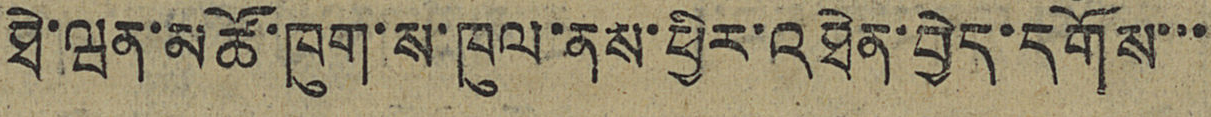ཐེ་ཝན་མཚོ་ཁུག་ས་ཁུལ་ནས་ཕྱིར་འཐེན་བྱེད་དགོས་་་
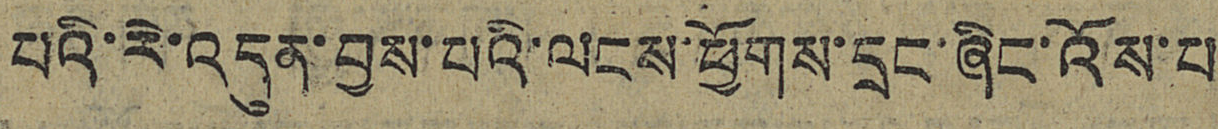པའི་རེ་འདུན་བྱས་པའི་ལངས་ཕྱོགས་དྲང་ཞིང་འོས་པ
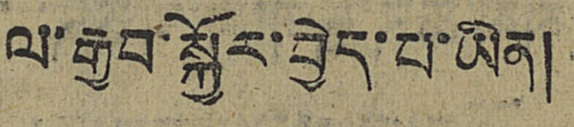ལ་རྒྱབ་སྐྱོར་བྱེད་པ་ཡིན།
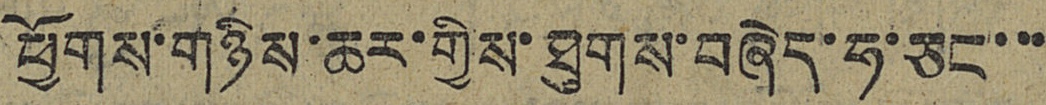ཕྱོགས་གཉིས་ཆར་གྱིས་ཐུགས་བཞེད་ཧ་ཅང་་་
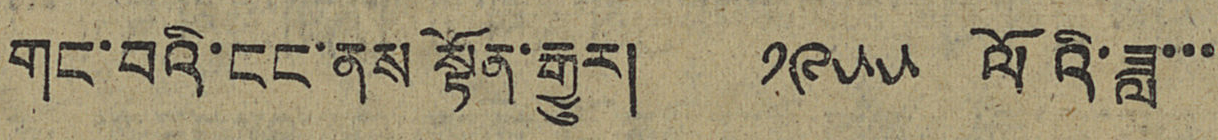གང་བའི་ངང་ནས སྟོན་རྒྱུར། ༡༩༥༥ ལོའི་ཟླ་་་
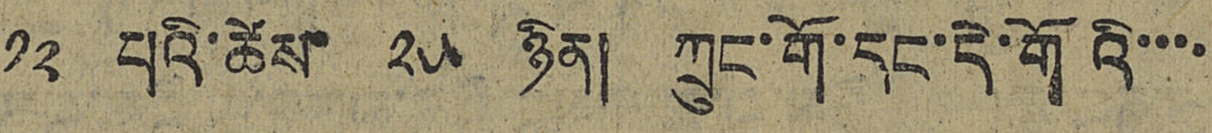༡༢ པའི་ཚེས་ ༢༥ ཉིན། ཀྲུང་གོ་དང་དེ་གོའི་་་་
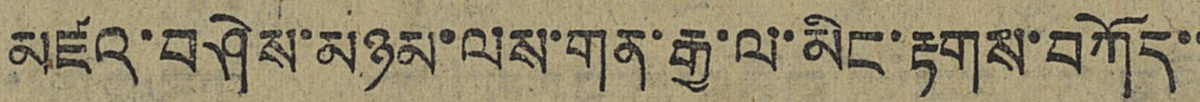མཛའ་བཤེས་མཉམ་ལས་གན་རྒྱ་ལ་མིང་རྟགས་བཀོད་་
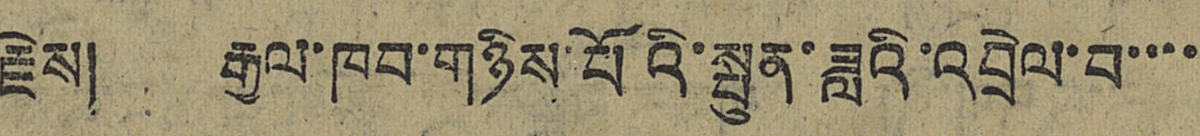རྗེས། རྒྱལ་ཁབ་གཉིས་པོའི་སྤུན་ཟླའི་འབྲེལ་བ་་་་
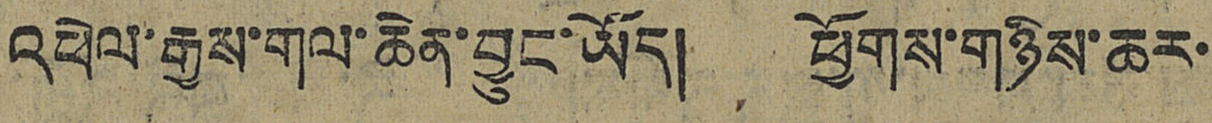འཕེལ་རྒྱས་གལ་ཆེན་བྱུང་ཡོད། ཕྱོགས་གཉིས་ཆར་
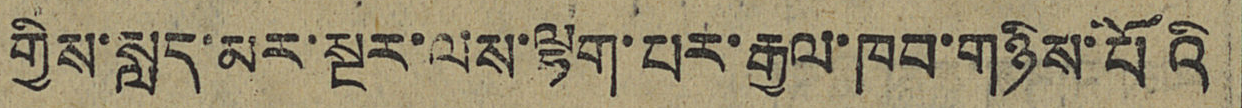གྱིས་སླད་མར་སྔར་ལས་ལྷག་པར་རྒྱལ་ཁབ་གཉིས་པོའི
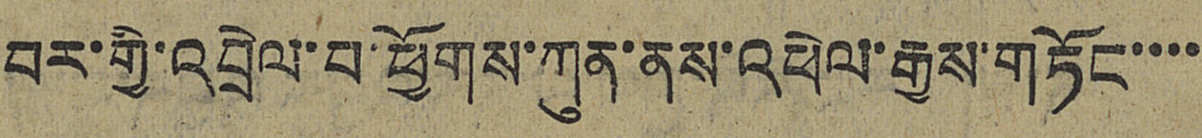བར་གྱི་འབྲེལ་བ་ཕྱོགས་ཀུན་ནས་འཕེལ་རྒྱས་གཏོང་་་་
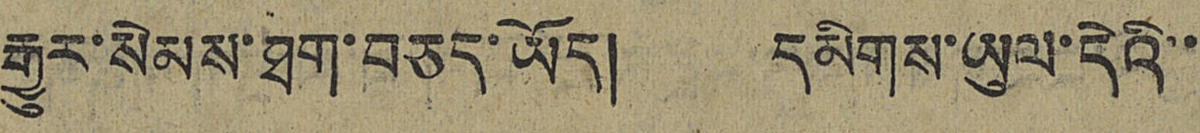རྒྱུར་སེམས་ཐག་བཅད་ཡོད། དམིགས་ཡུལ་དེའི་་
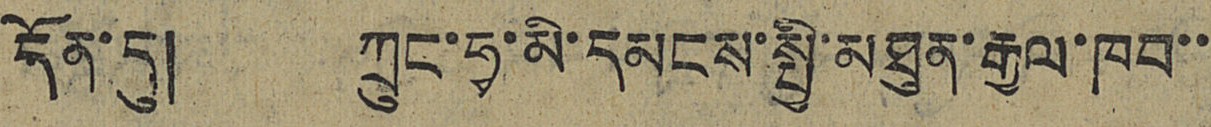དོན་དུ། ཀྲུང་ཧྭ་མི་དམངས་སྤྱི་མཐུན་རྒྱལ་ཁབ་་
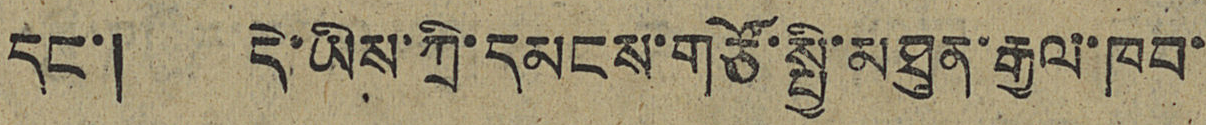དང་། དེ་ཡིས་ཀྲི་དམངས་གཙོ་སྤྱི་མཐུན་རྒྱལ་ཁབ་
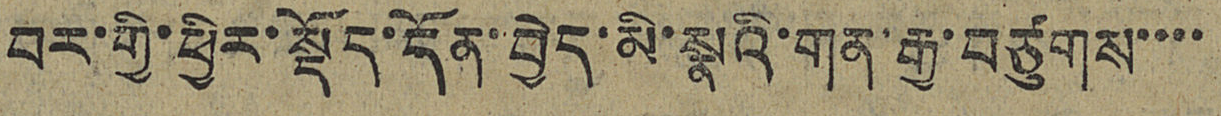བར་གྱི་ཕྱིར་སྡོད་དོན་བྱེད་མི་སྣའི་གན་རྒྱ་བཙུགས་་་་
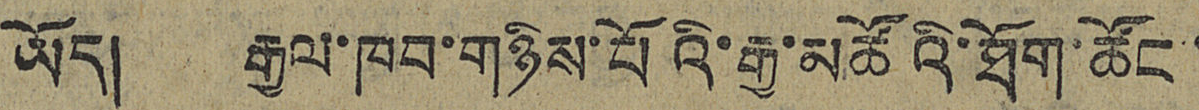ཡོད། རྒྱལ་ཁབ་གཉིས་པོའི་རྒྱ་མཚོའི་ཐོག་ཚོང་
